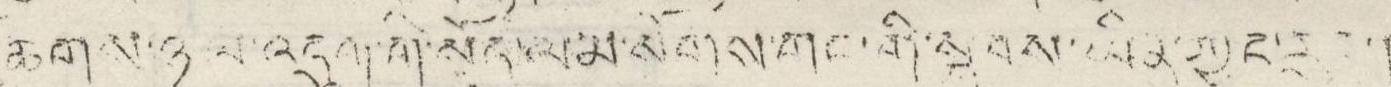ཆགས་ཉལ་འདུག་གི་སྦྱོད་ལམ་སོགས་གང་གི་སྐབས་ཡིན་ཀྱང་རུང་།
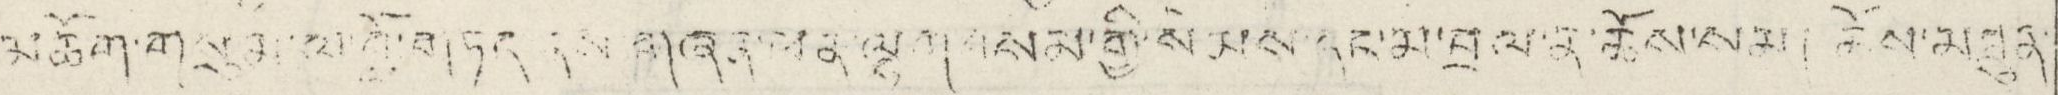མཆོག་གསུམ་ལ་བློ་གཏད ནས་གཞན་ཕན་ལྷག བསམ་གྱི་སེམས་དང་མ་བྲལ་ན་ཆོས་སམ། ཆོས་མཐུན་
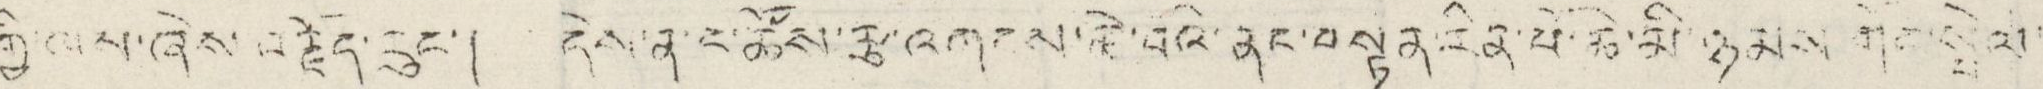གྱི་ལས་ཞེས་བརྗོད་རུང་། དེས་ནས་ང་ཚོས་རྩ་འགངས་ཅྷེ་བའི་ནང་བསྟན་རིན་པོ་ཆེ་མི་ཉམས གོང་སྤེལ་
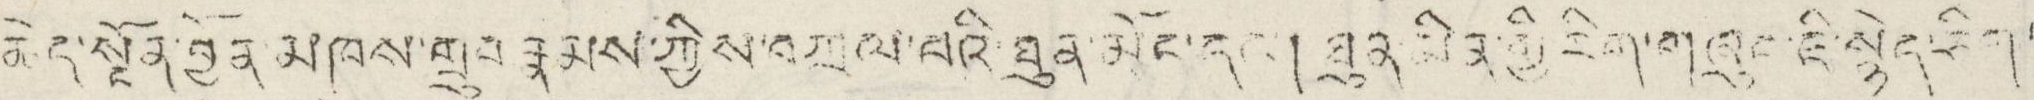ཆེད་སྔོན་བྱོན་མཁས་གྲུབ་རྣམས་ཀྱིས་བཀྲལ་བའི་ཐུན་མོང་དང་། ཐུན་མིན་གྱི་རིག་གཞུང་ཇི་སྙེད་ཅིག་
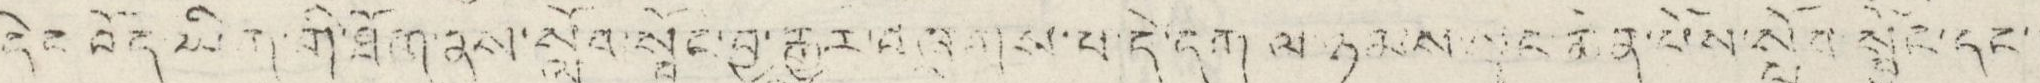དེང་བོད་ཡིག་གི་ཐོག་ནས་སློབ་སྦྱོང་བྱ་རྒྱུར་བཞུགས་པ་དེ་དག ལ་ཉམས་ང་ཆེན་པོས་སློབ་སྦྱོང་དང་།
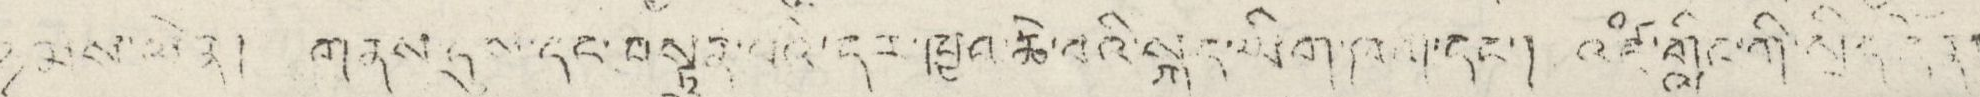ཉམས་ལེན། གནས་དུས་དང་བསྟན་པའི་དར་ཁྱབ་ཆེ་བའི་སྐད་ཡིག་ཁག་དང་། འཛཾ་གླིང་ཀི་སྲིད་དོན།
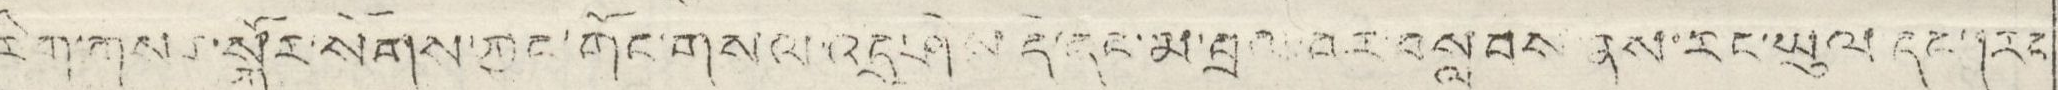རིག་གསར་སྐོར་སོགས་ཀྱང་གོང་གསལ་འདྲ་ཤེས དེ་དང་མ་བྲལ་བར་བསླབས ནས་རང་ཡུལ དང་།རང་
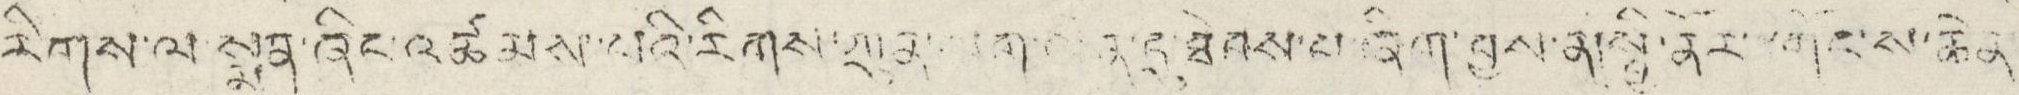རིགས་ལ སྨན་ཞིང་འཚམས་པའི་རིགས་ཀུན་ལག་ལེན་དུ་ཐེབས་པ་ཞིག་བྱས་ན་སྦྱི་ནོར་༸གོང་ས་ཆེན་
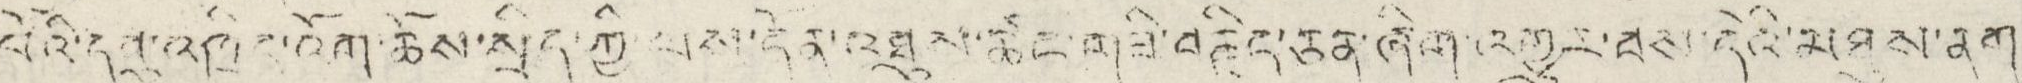པོའི་དབུ་འཁྲིད་འོག་ཆོས་སྲིད་ཀྱི་ལས་དོན་འཐུས་ཚང་གཟི་བརྗོད་ཅན་ཞིག་འགྱུར་བས་དེའི་མཐུས་ནག་
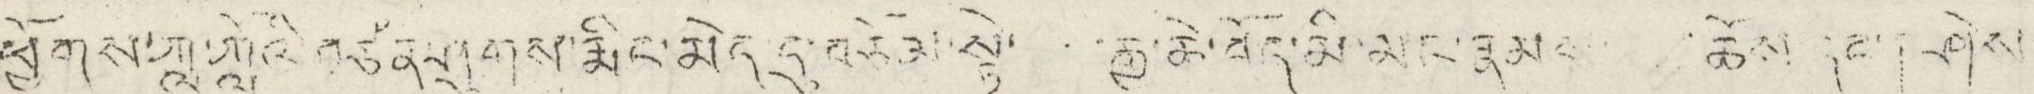ཕྱོགས་ཀླ་ཀློའི་བཙན་ཤུགས་རྨིང་མེད དུ་བཅོམ་སྟེ་ ་རྒྱ་ཆེ་བོད་མི་མང་རྣམས་ ཆོས དང་། ཤེས་
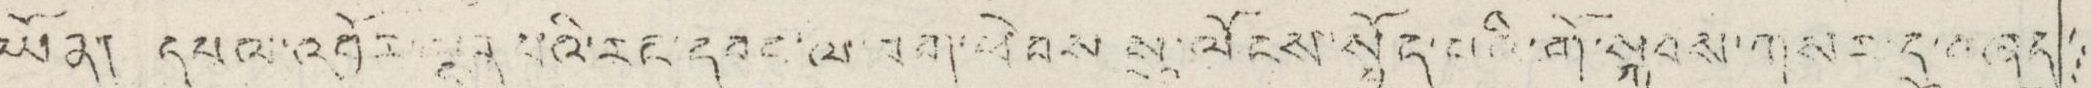ཡོན། དཔལ་འབྱོར་ལྡན་པའི་རང་དབང་ལ་བག་ཕེབས་སུ་ལོངས་སྤྱོད་པའི་གོ་སྐབས་གསར་དུ་བཞད་
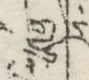འགྱུར་
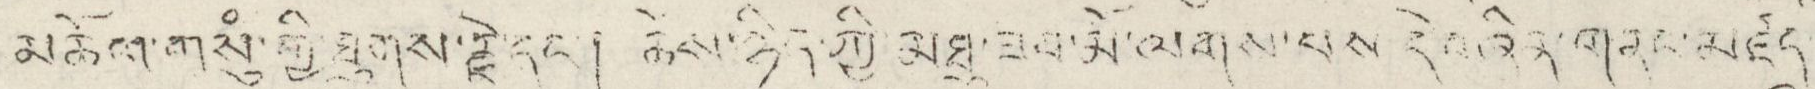མཆོལ་གསུཾ་གྱི་ཐུགས་རྗེ་དང་། ཆོས་ཉིད་ཀྱི་མཐུ་ཟབ་མོ་ལགས་པས དེ་བཞིན་གནང་མཛད་པ་
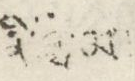ནི་ མ་
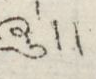ཞུ།།
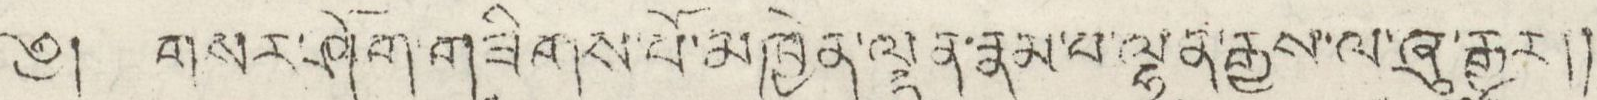༄། གསར་ཤོག་གཟིགས་པོ་མཁྱེན་ལྡན་རྣམ་པ་ལྷན་རྒྱས་ལ་ཞུ་རྒྱུར།།
